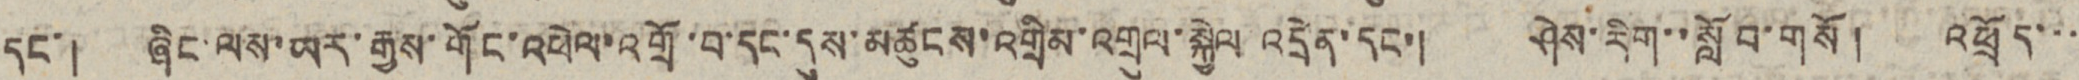དང་། ཞིང་ལས་ཡར་རྒྱས་གོང་འཕེལ་འགྲོ་བ་དང་དུས་མཚུངས་འགྲིམ་འགྲུལ་སྐྱེལ འདྲེན་དང་། ཤེས་རིག་་སློབ་གསོ། འཕྲོད་་་
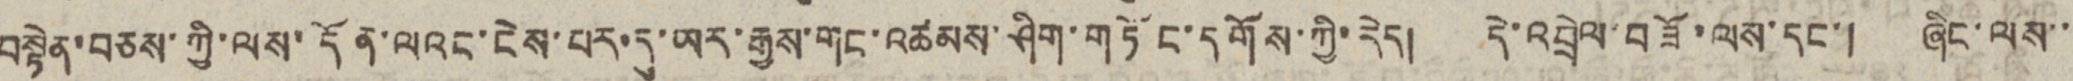བསྟེན་བཅས་ཀྱི་ལས་དོན་ལའང་ངེས་པར་དུ་ཡར་རྒྱས་གང་འཚམས་ཤིག་གཏོང་དགོས་ཀྱི་རེད། དེ་འབྲེལ་བཟོ་ལས་དང་། ཞིང་ལས་་
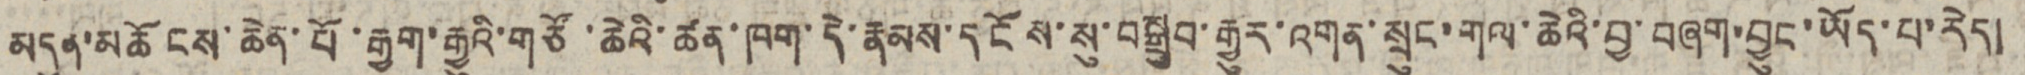མདུན་མཆོངས་ཆེན་པོ་རྒྱག་རྒྱུའི་གཙོ་ཆེའི་ཚན་ཁག་དེ་རྣམས་དངོས་སུ་བསྒྲུབ་རྒྱུར་འགན་སྲུང་གལ་ཆེའི་བྱ་བཞག་བྱུང་ཡོད་པ་རེད།
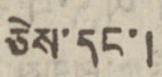ཅེས་དང་།
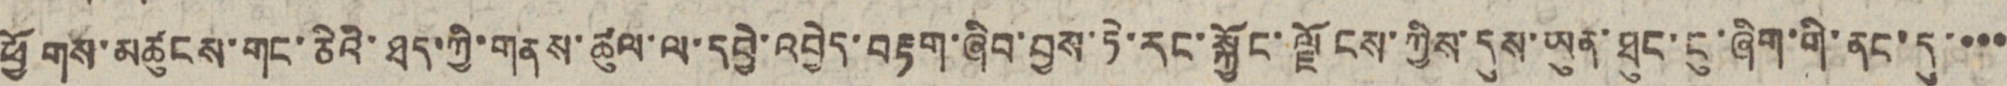ཕྱོགས་མཚུངས་གང་ཅིའི་ཐད་ཀྱི་གནས་ཚུལ་ལ་དབྱེ་འབྱེད་བརྟག་ཞིབ་བྱས་ཏེ་རང་སྐྱོང་ལྗོངས་ཀྱིས་དུས་ཡུན་ཐུང་ངུ་ཞིག་གི་ནང་དུ་་་་
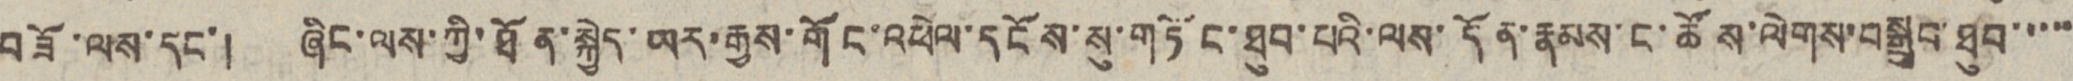བཟོ་ལས་དང་། ཞིང་ལས་ཀྱི་ཐོན་སྐྱེད་ཡར་རྒྱས་གོང་འཕེལ་དངོས་སུ་གཏོང་ཐུབ་པའི་ལས་དོན་རྣམས་ང་ཚོས་ལེགས་བསྒྲུབ་ཐུབ་་་་་
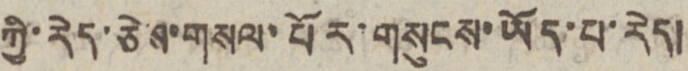ཀྱི་རེད་ཅེས་གསལ་པོར་གསུངས་ཡོད་པ་རེད།
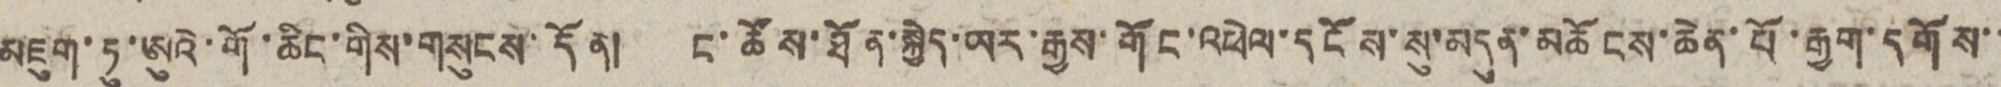མཇུག་ཏུ་ཨུའེ་གོ་ཆིང་གིས་གསུངས་དོན། ང་ཚོས་ཐོན་སྐྱེད་ཡར་རྒྱས་གོང་འཕེལ་དངོས་སུ་མདུན་མཆོངས་ཆེན་པོ་རྒྱག་དགོས་་
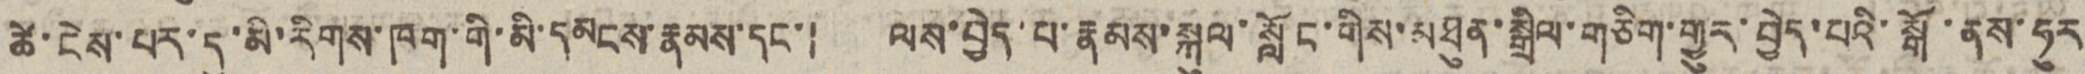ཚེ་ངེས་པར་དུ་མི་རིགས་ཁག་གི་མི་དམངས་རྣམས་དང་། ལས་བྱེད་པ་རྣམས་སྐུལ་སློང་གིས་མཐུན་སྒྲིལ་གཅིག་གྱུར་བྱེད་པའི་སྒོ་ནས་ཧུར
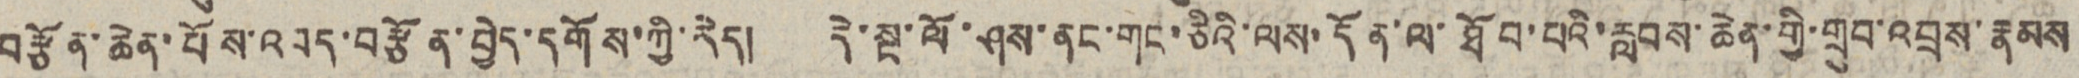བརྩོན་ཆེན་པོས་འབད་བརྩོན་བྱེད་དགོས་ཀྱི་རེད། དེ་སྔ་ལོ་ཤས་ནང་གང་ཅིའི་ལས་དོན་ལ་ཐོབ་པའི་རླབས་ཆེན་གྱི་གྲུབ་འབྲས་རྣམས
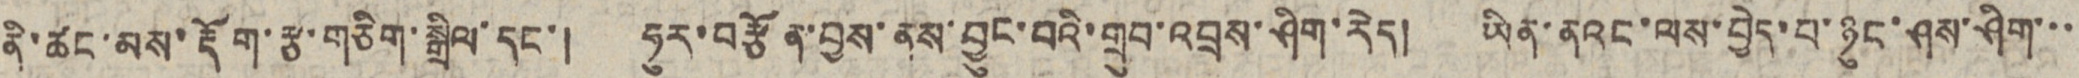ནི་ཚང་མས་རྡོག་རྩ་གཅིག་སྒྲིལ་དང་། ཧུར་བརྩོན་བྱས་ནས་བྱུང་བའི་གྲུབ་འབྲས་ཤིག་རེད། ཡིན་ནའང་ལས་བྱད་པ་ཉུང་ཤས་ཤིག་་་
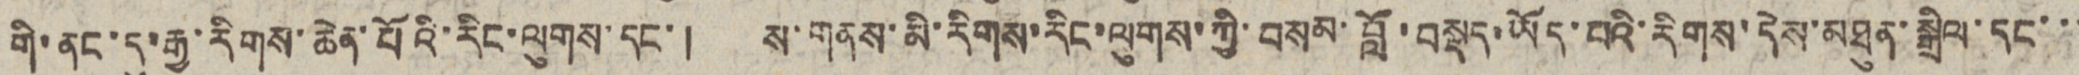གི་ནང་དུ་རྒྱ་རིགས་ཆེན་པོའི་རིང་ལུགས་དང་། ས་གནས་མི་རིགས་རིང་ལུགས་ཀྱི་བསམ་བློ་བསྡད་ཡོད་པའི་རིགས་དེས་མཐུན་སྒྲིལ་དང་་་
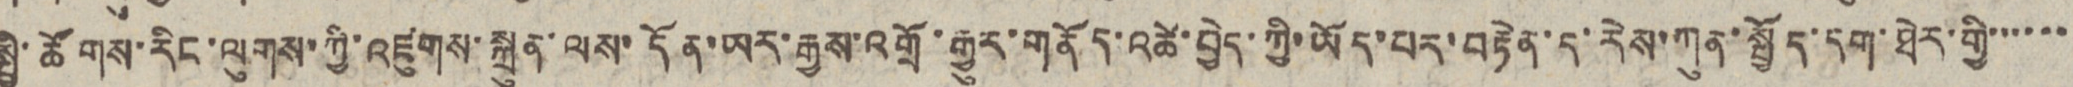སྤྱི་ཚོགས་རིང་ལུགས་འཛུགས་སྐྲུན་ལས་དོན་ཡར་རྒྱས་འགྲོ་རྒྱུར་གནོད་འཚེ་བྱེད་ཀྱི་ཡོད་པར་བརྟེན་ད་རེས་ཀུན་སྤྱོད་དག་ཐེར་གྱི་་་་་་
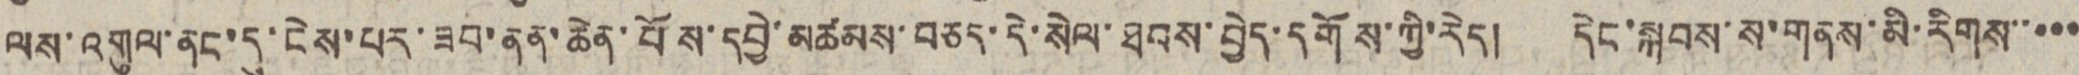ལས་འགུལ་ནང་དུ་ངེས་པར་ཟབ་ནན་ཆེན་པོས་དབྱེ་མཚམས་བཅད་དེ་སེལ་ཐབས་བྱེད་དགོས་ཀྱི་རེད། དེང་སྐབས་ས་གནས་མི་རིགས་་་་་
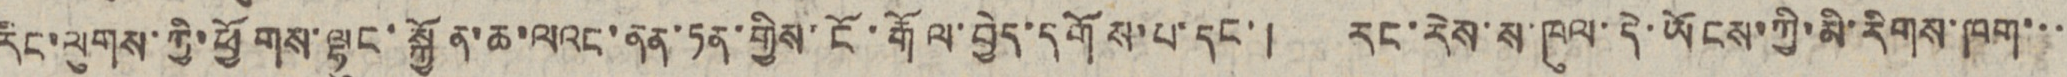རིང་ལུགས་ཀྱི་ཕྱོགས་ལྷུང་སྐྱོན་ཆ་ལའང་ནན་ཏན་གྱིས་ངོ་རྒོལ་བྱེད་དགོས་པ་དང་། རང་རེས་ས་ཁུལ་དེ་ཡོངས་ཀྱི་མི་རིགས་ཁག་་་
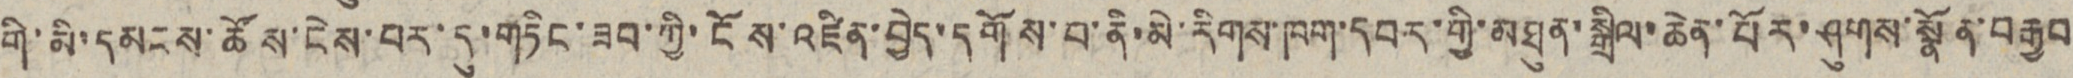གི་མི་དམངས་ཚོས་ངེས་པར་དུ་གཏིང་ཟབ་ཀྱི་ངོས་འཛིན་བྱེད་དགོས་པ་ནི་མི་རིགས་ཁག་དབར་གྱི་མཐུན་སྒྲིལ་ཆེན་པོར་ཤུགས་སྣོན་བརྒྱབ
